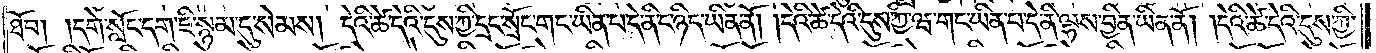ཐོབ། །དགེ་སློང་དག་ཇི་སྙམ་དུ་སེམས། དེའི་ཚེ་དེའི་དུས་ཀྱི་དྲང་སྲོང་གང་ཡིན་པ་དེ་ནི་ང་ཉིད་ཡིན་ནོ། །དེའི་ཚེ་དེའི་དུས་ཀྱི་ཝ་གང་ཡིན་པ་དེ་ནི་ལྷས་བྱིན་ཡིན་ནོ། །དེའི་ཚེ་དེའི་དུས་ཀྱི་
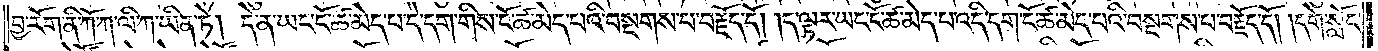བྱ་རོག་ནི་ཀོ་ག་ལི་ཀ་ཡིན་ཏེ། དེ་ན་ཡང་ངོ་ཚ་མེད་པ་དེ་དག་གིས་ངོ་ཚ་མེད་པའི་བསྔགས་པ་བརྗོད་དོ། །ད་ལྟར་ཡང་ངོ་ཚ་མེད་པ་འདི་དག་ངོ་ཚ་མེད་པའི་སྔགས་པ་བརྗོད་དོ། །དགེ་སློང་
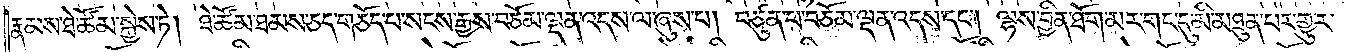རྣམས་ཐེ་ཚོམ་སྐྱེས་ཏེ། ཐེ་ཚོམ་ཐམས་ཅད་གཅོད་པ་སངས་རྒྱས་བཅོམ་ལྡན་འདས་ལ་ཞུས་པ། བཙུན་པ་བཅོམ་ལྡན་འདས་དང༌། ལྷས་བྱིན་ཐོག་མར་གང་དུ་མི་མཐུན་པར་གྱུར་
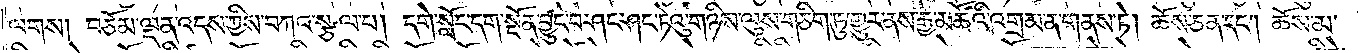ལགས། བཅོམ་ལྡན་འདས་ཀྱིས་བཀའ་སྩལ་པ། དགེ་སློང་དག་སྔོན་བྱུང་བ་ཤང་ཤང་ཏེའུ་གཉིས་ལུས་གཅིག་ཏུ་གྱུར་ནས་རྒྱ་མཚོའི་འགྲམ་ན་གནས་ཏེ། ཆོས་ཅན་དང༌། ཆོས་མ་
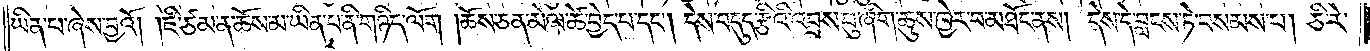ཡིན་པ་ཞེས་བྱའོ། །ཇི་ཙམ་ན་ཆོས་མ་ཡིན་པ་ནི་གཉིད་ལོག། ཆོས་ཅན་མེལ་ཚེ་བྱེད་པ་དང༌། དེས་བདུད་རྩིའི་འབྲས་བུ་ཞིག་ཆུས་ཁྱེར་བ་མཐོང་ནས། དེས་དེ་བླངས་ཏེ་བསམས་པ། ཅི་རེ་
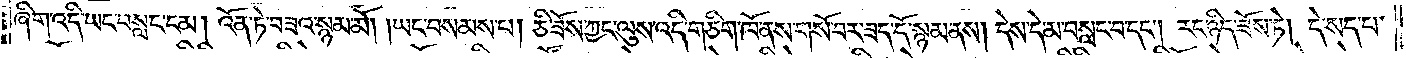ཞིག་འདི་ཡང་བསླང་ངམ། འོན་ཏེ་བཟའ་སྙམ་མོ། །ཡང་བསམས་པ། ཅི་ཟོས་ཀྱང་ལུས་འདི་གཅིག་ཁོ་ནས་གསོ་བར་ཟད་དོ་སྙམ་ནས། དེས་དེ་མ་བསླང་བ་དང༌། རང་ཉིད་ཟོས་ཏེ། དེ་སད་པ་
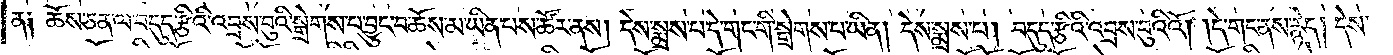ན། ཆོས་ཅན་ལ་བདུད་རྩིའི་འབྲས་བུའི་སྒྲེགས་པ་བྱུང་བ་ཆོས་མ་ཡིན་པས་ཚོར་ནས། དེས་སྨྲས་པ་དེ་གང་གི་སྒྲེགས་པ་ཡིན། དེས་སྨྲས་པ། བདུད་རྩིའི་འབྲས་བུའིའོ། །དེ་གང་ནས་རྙེད། དེས་
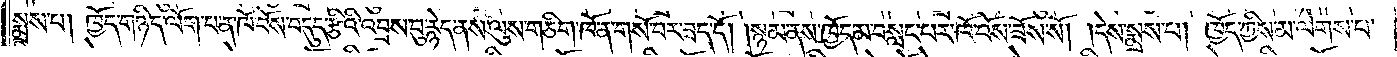སྨྲས་པ། ཁྱོད་གཉིད་ལོག་པ་ན་ཁོ་བོས་བདུད་རྩིའི་འབྲས་བུ་རྙེད་ནས་ལུས་གཅིག་ཁོ་ན་གསོ་བར་ཟད་དོ། །སྙམ་ནས་ཁྱོད་མ་བསླང་པར་ཁོ་བོས་ཟོས་སོ། །དེས་སྨྲས་པ། ཁྱོད་ཀྱིས་མ་ལེགས་པ་
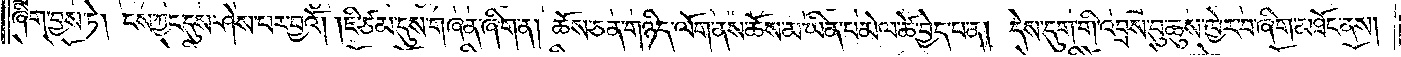ཞིག་བྱས་ཏེ། ངས་ཀྱང་དུས་ཤེས་པར་བྱའོ། །ཇི་ཙམ་དུས་གཞན་ཞིག་ན། ཆོས་ཅན་གཉིད་ལོག་ནས་ཆོས་མ་ཡིན་པ་མེལ་ཚེ་བྱེད་པ་ན། དེས་དུག་གི་འབྲས་བུ་ཆུས་ཁྱེར་བ་ཞིག་མཐོང་ནས།
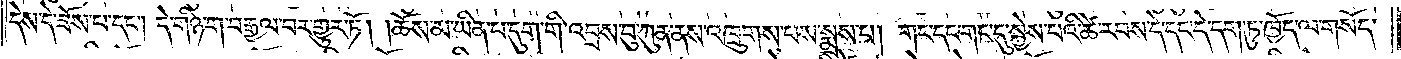དེས་དེ་ཟོས་པ་དང༌། དེ་གཉི་ག་བརྒྱལ་བར་གྱུར་ཏོ། །ཆོས་མ་ཡིན་པ་དུག་གི་འབྲས་བུ་ཀུན་ནས་འཁྲུགས་པས་སྨྲས་པ། གང་དང་གང་དུ་སྐྱེས་པའི་ཚེ་རབས་དེ་དང་དེ་དག་ཏུ་ཁྱོད་ལ་གསོད་
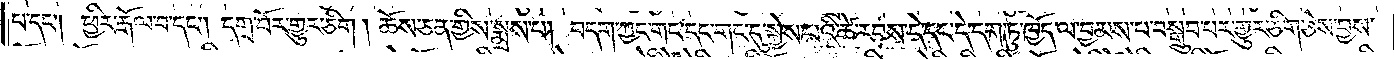པ་དང༌། ཕྱིར་རྒོལ་བ་དང༌། དགྲ་བོར་གྱུར་ཅིག །ཆོས་ཅན་གྱིས་སྨྲས་པ། བདག་ཀྱང་གང་དང་གང་དུ་སྐྱེས་པའི་ཚེ་རབས་དེ་དང་དེ་དག་ཏུ་ཁྱོད་ལ་བྱམས་པ་བསྒྲུབ་པར་གྱུར་ཅིག་ཅེས་བྱས་
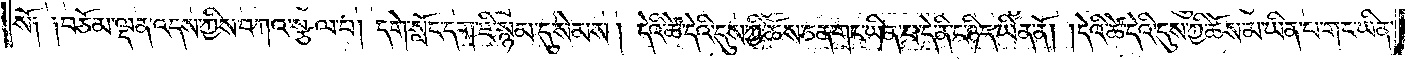སོ། །བཅོམ་ལྡན་འདས་ཀྱིས་བཀའ་སྩལ་པ། དགེ་སློང་དག་ཇི་སྙམ་དུ་སེམས། དེའི་ཚེ་དེའི་དུས་ཀྱི་ཆོས་ཅན་གང་ཡིན་པ་དེ་ནི་ང་ཉིད་ཡིན་ནོ། །དེའི་ཚེ་དེའི་དུས་ཀྱི་ཆོས་མ་ཡིན་པ་གང་ཡིན་
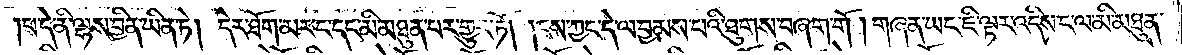པ་དེ་ནི་ལྷས་བྱིན་ཡིན་ཏེ། དེར་ཐོག་མར་ང་དང་མི་མཐུན་པར་གྱུར་ཏོ། །ངས་ཀྱང་དེ་ལ་བྱམས་པའི་ཐུགས་བཞག་གོ །གཞན་ཡང་ཇི་ལྟར་འདིས་ང་ལ་མི་མཐུན་
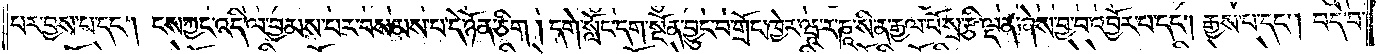པར་བྱས་པ་དང༌། ངས་ཀྱང་འདི་ལ་བྱམས་པར་བསམས་པ་དེ་ཉོན་ཅིག །དགེ་སློང་དག་སྔོན་བྱུང་བ་གྲོང་ཁྱེར་ཝཱ་ར་ཎཱ་སི་ན་རྒྱལ་པོ་སྲ་རྩི་ལྡན་ཞེས་བྱ་བ་འབྱོར་པ་དང༌། རྒྱས་པ་དང༌། བདེ་བ་
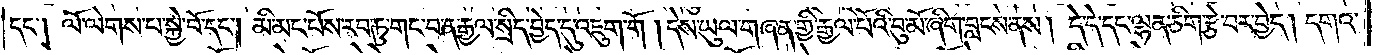དང༌། ལོ་ལེགས་པ་སྐྱེ་བོ་དང༌། མི་མང་པོས་རབ་ཏུ་གང་བ་ན་རྒྱལ་སྲིད་བྱེད་དུ་འཇུག་གོ །དེས་ཡུལ་གཞན་གྱི་རྒྱལ་པོའི་བུ་མོ་ཞིག་བླངས་ནས། དེ་དེ་དང་ལྷན་ཅིག་རྩེ་བར་བྱེད། དགའ་
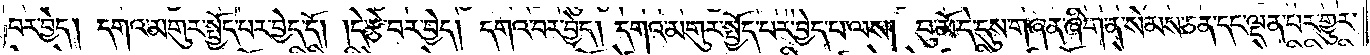བར་བྱེད། དགའ་མགུར་སྤྱོད་པར་བྱེད་དོ། །དེ་རྩེ་བར་བྱེད། དགའ་བར་བྱེད། དགའ་མགུར་སྤྱོད་པར་བྱེད་པ་ལས། བུ་མོ་དེ་དུས་གཞན་ཞིག་ན་སེམས་ཅན་དང་ལྡན་པར་གྱུར་
